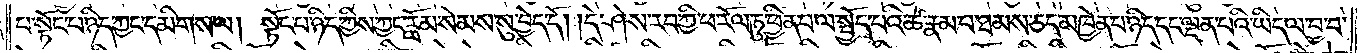པ་སྟོང་པ་ཉིད་ཀྱང་དམིགས་ལ། སྟོང་པ་ཉིད་ཀྱིས་ཀྱང་རློམ་སེམས་སུ་བྱེད་དོ། །དེ་ཤེས་རབ་ཀྱི་ཕ་རོལ་ཏུ་ཕྱིན་པ་ལ་སྤྱོད་པའི་ཚེ་རྣམ་པ་ཐམས་ཅད་མཁྱེན་པ་ཉིད་དང་ལྡན་པའི་ཡིད་ལ་བྱ་བ་
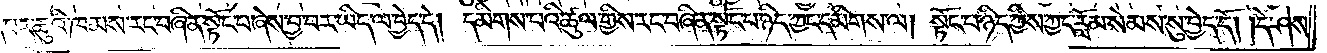མེད་པར་ཆུའི་ཁམས་རང་བཞིན་སྟོང་པ་ཞེས་བྱ་བར་ཡིད་ལ་བྱེད་དེ། དམིགས་པའི་ཚུལ་གྱིས་རང་བཞིན་སྟོང་པ་ཉིད་ཀྱང་དམིགས་ལ། སྟོང་པ་ཉིད་ཀྱིས་ཀྱང་རློམ་སེམས་སུ་བྱེད་དོ། །དེ་ཤེས་
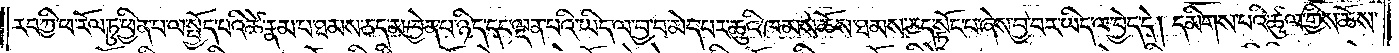རབ་ཀྱི་ཕ་རོལ་ཏུ་ཕྱིན་པ་ལ་སྤྱོད་པའི་ཚེ་རྣམ་པ་ཐམས་ཅད་མཁྱེན་པ་ཉིད་དང་ལྡན་པའི་ཡིད་ལ་བྱ་བ་མེད་པར་ཆུའི་ཁམས་ཆོས་ཐམས་ཅད་སྟོང་པ་ཞེས་བྱ་བར་ཡིད་ལ་བྱེད་དེ། དམིགས་པའི་ཚུལ་གྱིས་ཆོས་
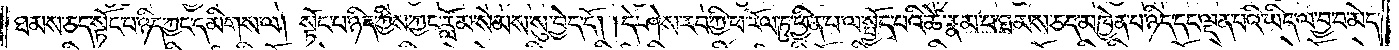ཐམས་ཅད་སྟོང་པ་ཉིད་ཀྱང་དམིགས་ལ། སྟོང་པ་ཉིད་ཀྱིས་ཀྱང་རློམ་སེམས་སུ་བྱེད་དོ། །དེ་ཤེས་རབ་ཀྱི་ཕ་རོལ་ཏུ་ཕྱིན་པ་ལ་སྤྱོད་པའི་ཚེ་རྣམ་པ་ཐམས་ཅད་མཁྱེན་པ་ཉིད་དང་ལྡན་པའི་ཡིད་ལ་བྱ་བ་མེད་
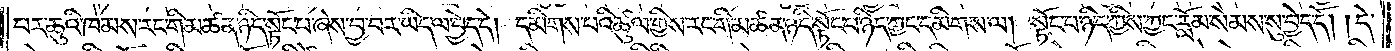པར་ཆུའི་ཁམས་རང་གི་མཚན་ཉིད་སྟོང་པ་ཞེས་བྱ་བར་ཡིད་ལ་བྱེད་དེ། དམིགས་པའི་ཚུལ་གྱིས་རང་གི་མཚན་ཉིད་སྟོང་པ་ཉིད་ཀྱང་དམིགས་ལ། སྟོང་པ་ཉིད་ཀྱིས་ཀྱང་རློམ་སེམས་སུ་བྱེད་དོ། །དེ་
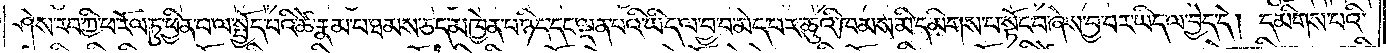ཤེས་རབ་ཀྱི་ཕ་རོལ་ཏུ་ཕྱིན་པ་ལ་སྤྱོད་པའི་ཚེ་རྣམ་པ་ཐམས་ཅད་མཁྱེན་པ་ཉིད་དང་ལྡན་པའི་ཡིད་ལ་བྱ་བ་མེད་པར་ཆུའི་ཁམས་མི་དམིགས་པ་སྟོང་པ་ཞེས་བྱ་བར་ཡིད་ལ་བྱེད་དེ། དམིགས་པའི་
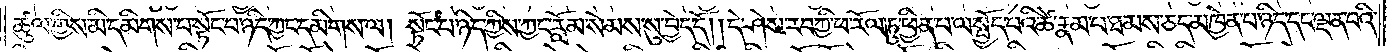ཚུལ་གྱིས་མི་དམིགས་པ་སྟོང་པ་ཉིད་ཀྱང་དམིགས་ལ། སྟོང་པ་ཉིད་ཀྱིས་ཀྱང་རློམ་སེམས་སུ་བྱེད་དོ། །དེ་ཤེས་རབ་ཀྱི་ཕ་རོལ་ཏུ་ཕྱིན་པ་ལ་སྤྱོད་པའི་ཚེ་རྣམ་པ་ཐམས་ཅད་མཁྱེན་པ་ཉིད་དང་ལྡན་པའི་
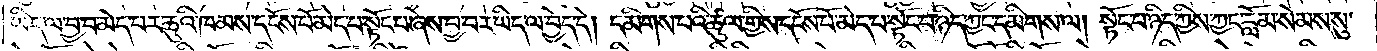ཡིད་ལ་བྱ་བ་མེད་པར་ཆུའི་ཁམས་དངོས་པོ་མེད་པ་སྟོང་པ་ཞེས་བྱ་བར་ཡིད་ལ་བྱེད་དེ། དམིགས་པའི་ཚུལ་གྱིས་དངོས་པོ་མེད་པ་སྟོང་པ་ཉིད་ཀྱང་དམིགས་ལ། སྟོང་པ་ཉིད་ཀྱིས་ཀྱང་རློམ་སེམས་སུ་
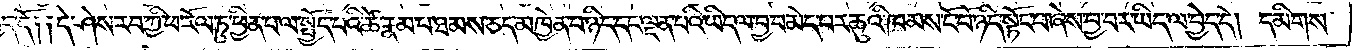བྱེད་དོ༑ ༑དེ་ཤེས་རབ་ཀྱི་ཕ་རོལ་ཏུ་ཕྱིན་པ་ལ་སྤྱོད་པའི་ཚེ་རྣམ་པ་ཐམས་ཅད་མཁྱེན་པ་ཉིད་དང་ལྡན་པའི་ཡིད་ལ་བྱ་བ་མེད་པར་ཆུའི་ཁམས་ངོ་བོ་ཉིད་སྟོང་པ་ཞེས་བྱ་བར་ཡིད་ལ་བྱེད་དེ། དམིགས་
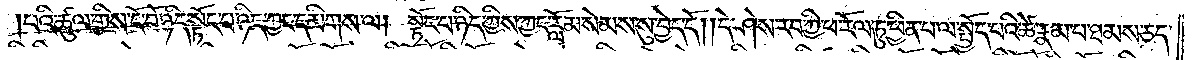པའི་ཚུལ་གྱིས་ངོ་བོ་ཉིད་སྟོང་པ་ཉིད་ཀྱང་དམིགས་ལ། སྟོང་པ་ཉིད་ཀྱིས་ཀྱང་རློམ་སེམས་སུ་བྱེད་དོ། །དེ་ཤེས་རབ་ཀྱི་ཕ་རོལ་ཏུ་ཕྱིན་པ་ལ་སྤྱོད་པའི་ཚེ་རྣམ་པ་ཐམས་ཅད་
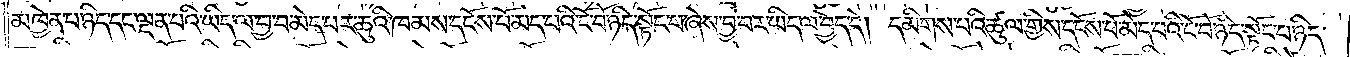མཁྱེན་པ་ཉིད་དང་ལྡན་པའི་ཡིད་ལ་བྱ་བ་མེད་པར་ཆུའི་ཁམས་དངོས་པོ་མེད་པའི་ངོ་བོ་ཉིད་སྟོང་པ་ཞེས་བྱ་བར་ཡིད་ལ་བྱེད་དེ། དམིགས་པའི་ཚུལ་གྱིས་དངོས་པོ་མེད་པའི་ངོ་བོ་ཉིད་སྟོང་པ་ཉིད་
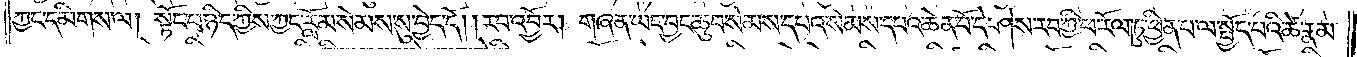ཀྱང་དམིགས་ལ། སྟོང་པ་ཉིད་ཀྱིས་ཀྱང་རློམ་སེམས་སུ་བྱེད་དོ། །རབ་འབྱོར། གཞན་ཡང་བྱང་ཆུབ་སེམས་དཔའ་སེམས་དཔའ་ཆེན་པོ་དེ་ཤེས་རབ་ཀྱི་ཕ་རོལ་ཏུ་ཕྱིན་པ་ལ་སྤྱོད་པའི་ཚེ་རྣམ་
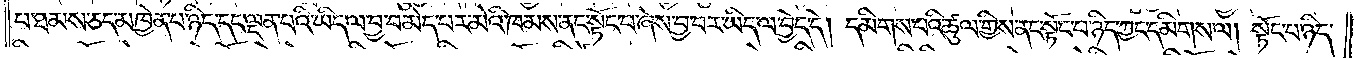པ་ཐམས་ཅད་མཁྱེན་པ་ཉིད་དང་ལྡན་པའི་ཡིད་ལ་བྱ་བ་མེད་པར་མེའི་ཁམས་ནང་སྟོང་པ་ཞེས་བྱ་བར་ཡིད་ལ་བྱེད་དེ། དམིགས་པའི་ཚུལ་གྱིས་ནང་སྟོང་པ་ཉིད་ཀྱང་དམིགས་ལ། སྟོང་པ་ཉིད་
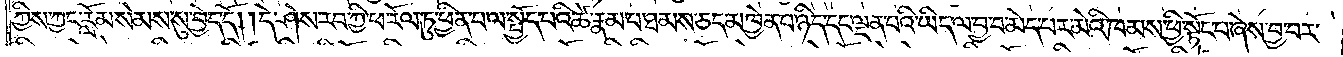ཀྱིས་ཀྱང་རློམ་སེམས་སུ་བྱེད་དོ། །དེ་ཤེས་རབ་ཀྱི་ཕ་རོལ་ཏུ་ཕྱིན་པ་ལ་སྤྱོད་པའི་ཚེ་རྣམ་པ་ཐམས་ཅད་མཁྱེན་པ་ཉིད་དང་ལྡན་པའི་ཡིད་ལ་བྱ་བ་མེད་པར་མེའི་ཁམས་ཕྱི་སྟོང་པ་ཞེས་བྱ་བར་
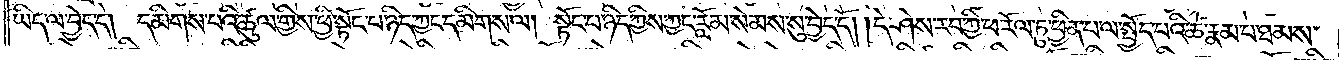ཡིད་ལ་བྱེད་དེ། དམིགས་པའི་ཚུལ་གྱིས་ཕྱི་སྟོང་པ་ཉིད་ཀྱང་དམིགས་ལ། སྟོང་པ་ཉིད་ཀྱིས་ཀྱང་རློམ་སེམས་སུ་བྱེད་དོ། །དེ་ཤེས་རབ་ཀྱི་ཕ་རོལ་ཏུ་ཕྱིན་པ་ལ་སྤྱོད་པའི་ཚེ་རྣམ་པ་ཐམས་
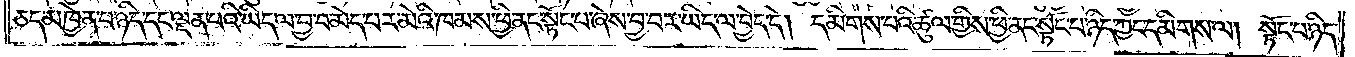ཅད་མཁྱེན་པ་ཉིད་དང་ལྡན་པའི་ཡིད་ལ་བྱ་བ་མེད་པར་མེའི་ཁམས་ཕྱི་ནང་སྟོང་པ་ཞེས་བྱ་བར་ཡིད་ལ་བྱེད་དེ། དམིགས་པའི་ཚུལ་གྱིས་ཕྱི་ནང་སྟོང་པ་ཉིད་ཀྱང་དམིགས་ལ། སྟོང་པ་ཉིད་
